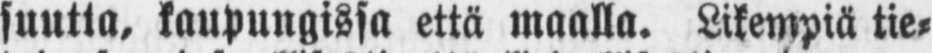suutta, kaupungissa että maalla. Likempiä tie-
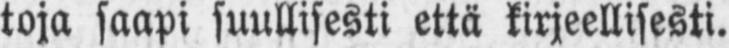toja saapi suullisesti että kirjeellisesti.
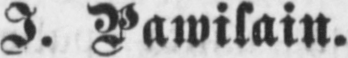J. Pawilain.
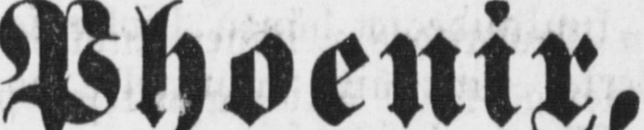Phoenix,
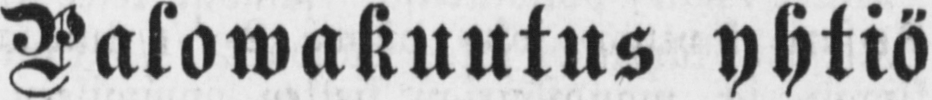Palowakuutus yhtiö
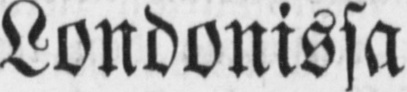Londonissa
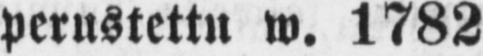perustettu w. 1782
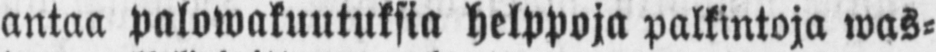antaa palowakuutuksia helppoja palkintoja was-
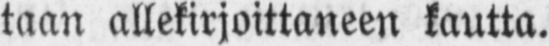taan allekirjoittaneen kautta.
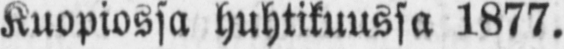Kuopiossa huhtikuussa 1877.
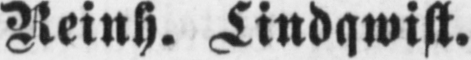Reinh. Lindqwist.
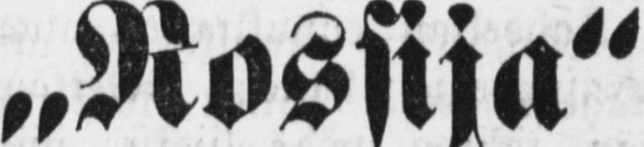„Rossija"
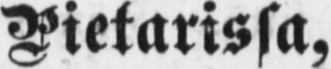Pietarissa,
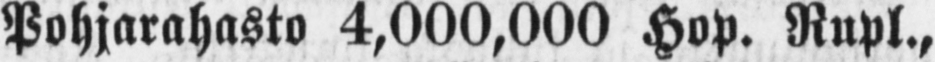Pohjarahasto 4,000,000 Hop. Rupl.,
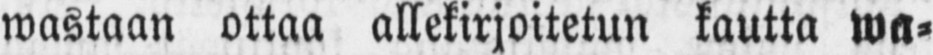wastaan ottaa allekirjoitetun kautta wa-
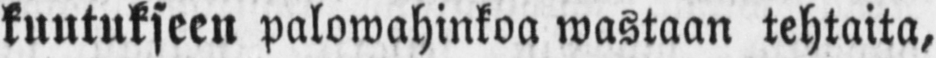kuutukseen palowahinkoa wastaan tehtaita,
